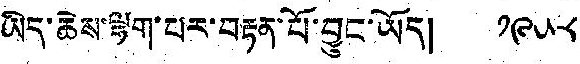ཡིད་ཆེས་ལྷག་པར་བརྟན་པོ་བྱུང་ཡོད། ༡༩༥༨
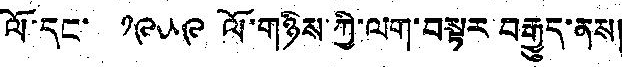ལོ་དང་ ༡༩༥༩ ལོ་གཉིས་ཀྱི་ལག་བསྟར བརྒྱུད་ནས།
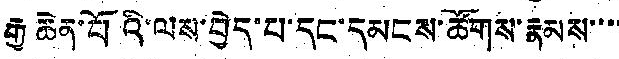རྒྱ ཆེན་པོའི་ལས་བྱེད་པ་དང་དམངས་ཚོགས་རྣམས་་་་
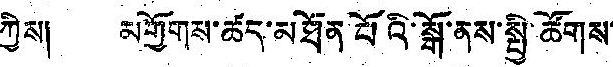ཀྱིས། མགྱོགས་ཚད་མཐོན་པོའི་སྒོ་ནས་སྤྱི་ཚོགས་
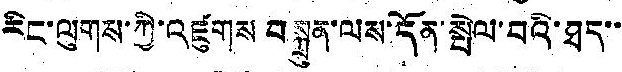རིང་ལུགས་ཀྱི་འཛུགས བསྐྲུན་ལས་དོན་སྤེལ་བའི་ཐད་་
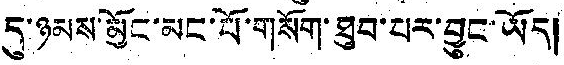དུ་ཉམས་མྱོང་མང་པོ་གསོག་ཐུབ་པར་བྱུང་ཡོད།
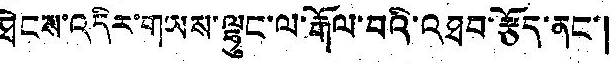ཐེངས་འདིར་གཡས་ལྷུང་ལ་རྒོལ་བའི་འཐབ་རྩོད་ནང་།
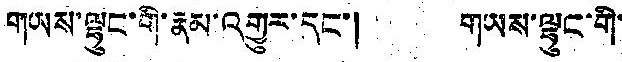གཡས་ལྷུང་གི་རྣམ་འགྱུར་དང་། གཡས་ལྷུང་གི་
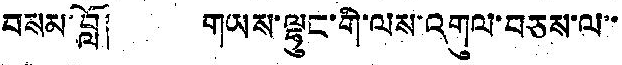བསམ་བློ། གཡས་ལྷུང་གི་ལས་འགུལ་བཅས་ལ་་
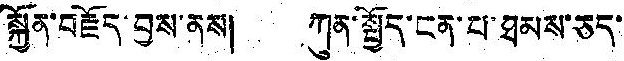སྐྱོན་བརྗོད་བྱས་ནས། ཀུན་སྤྱོད་ངན་པ་ཐམས་ཅད་
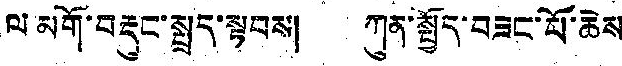ལ མགོ་བརྡུང་སྤྲད་སྟབས། ཀུན་སྤྱོད་བཟང་པོ་ཆེས
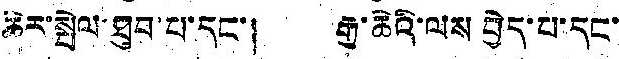ཆེར་སྤེལ་ཐུབ་པ་དང་། རྒྱ་ཆེའི་ལས བྱེད་པ་དང་
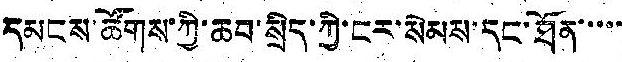དམངས་ཚོགས་ཀྱི་ཆབ་སྲིད་ཀྱི་ངར་སེམས་དང་ཐོན་་་་་
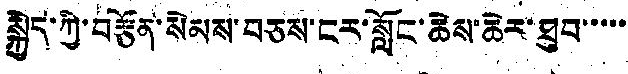སྐྱེད་ཀྱི་བརྩོན་སེམས་བཅས་ངར་སློང་ཆེས་ཆེར་ཐུབ་་་་་
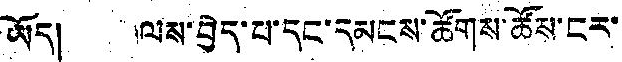ཡོད། ལས་བྱེད་པ་དང་དམངས་ཚོགས་ཚོས་ངར་
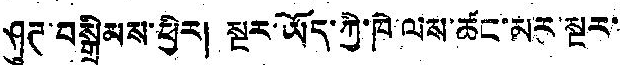ཤུཊ་བསྒྲིམས་ཕྱིར། སྔར་ཡོད་ཀྱི་ཁེ ལས་ཚང་མར་སྔར་
